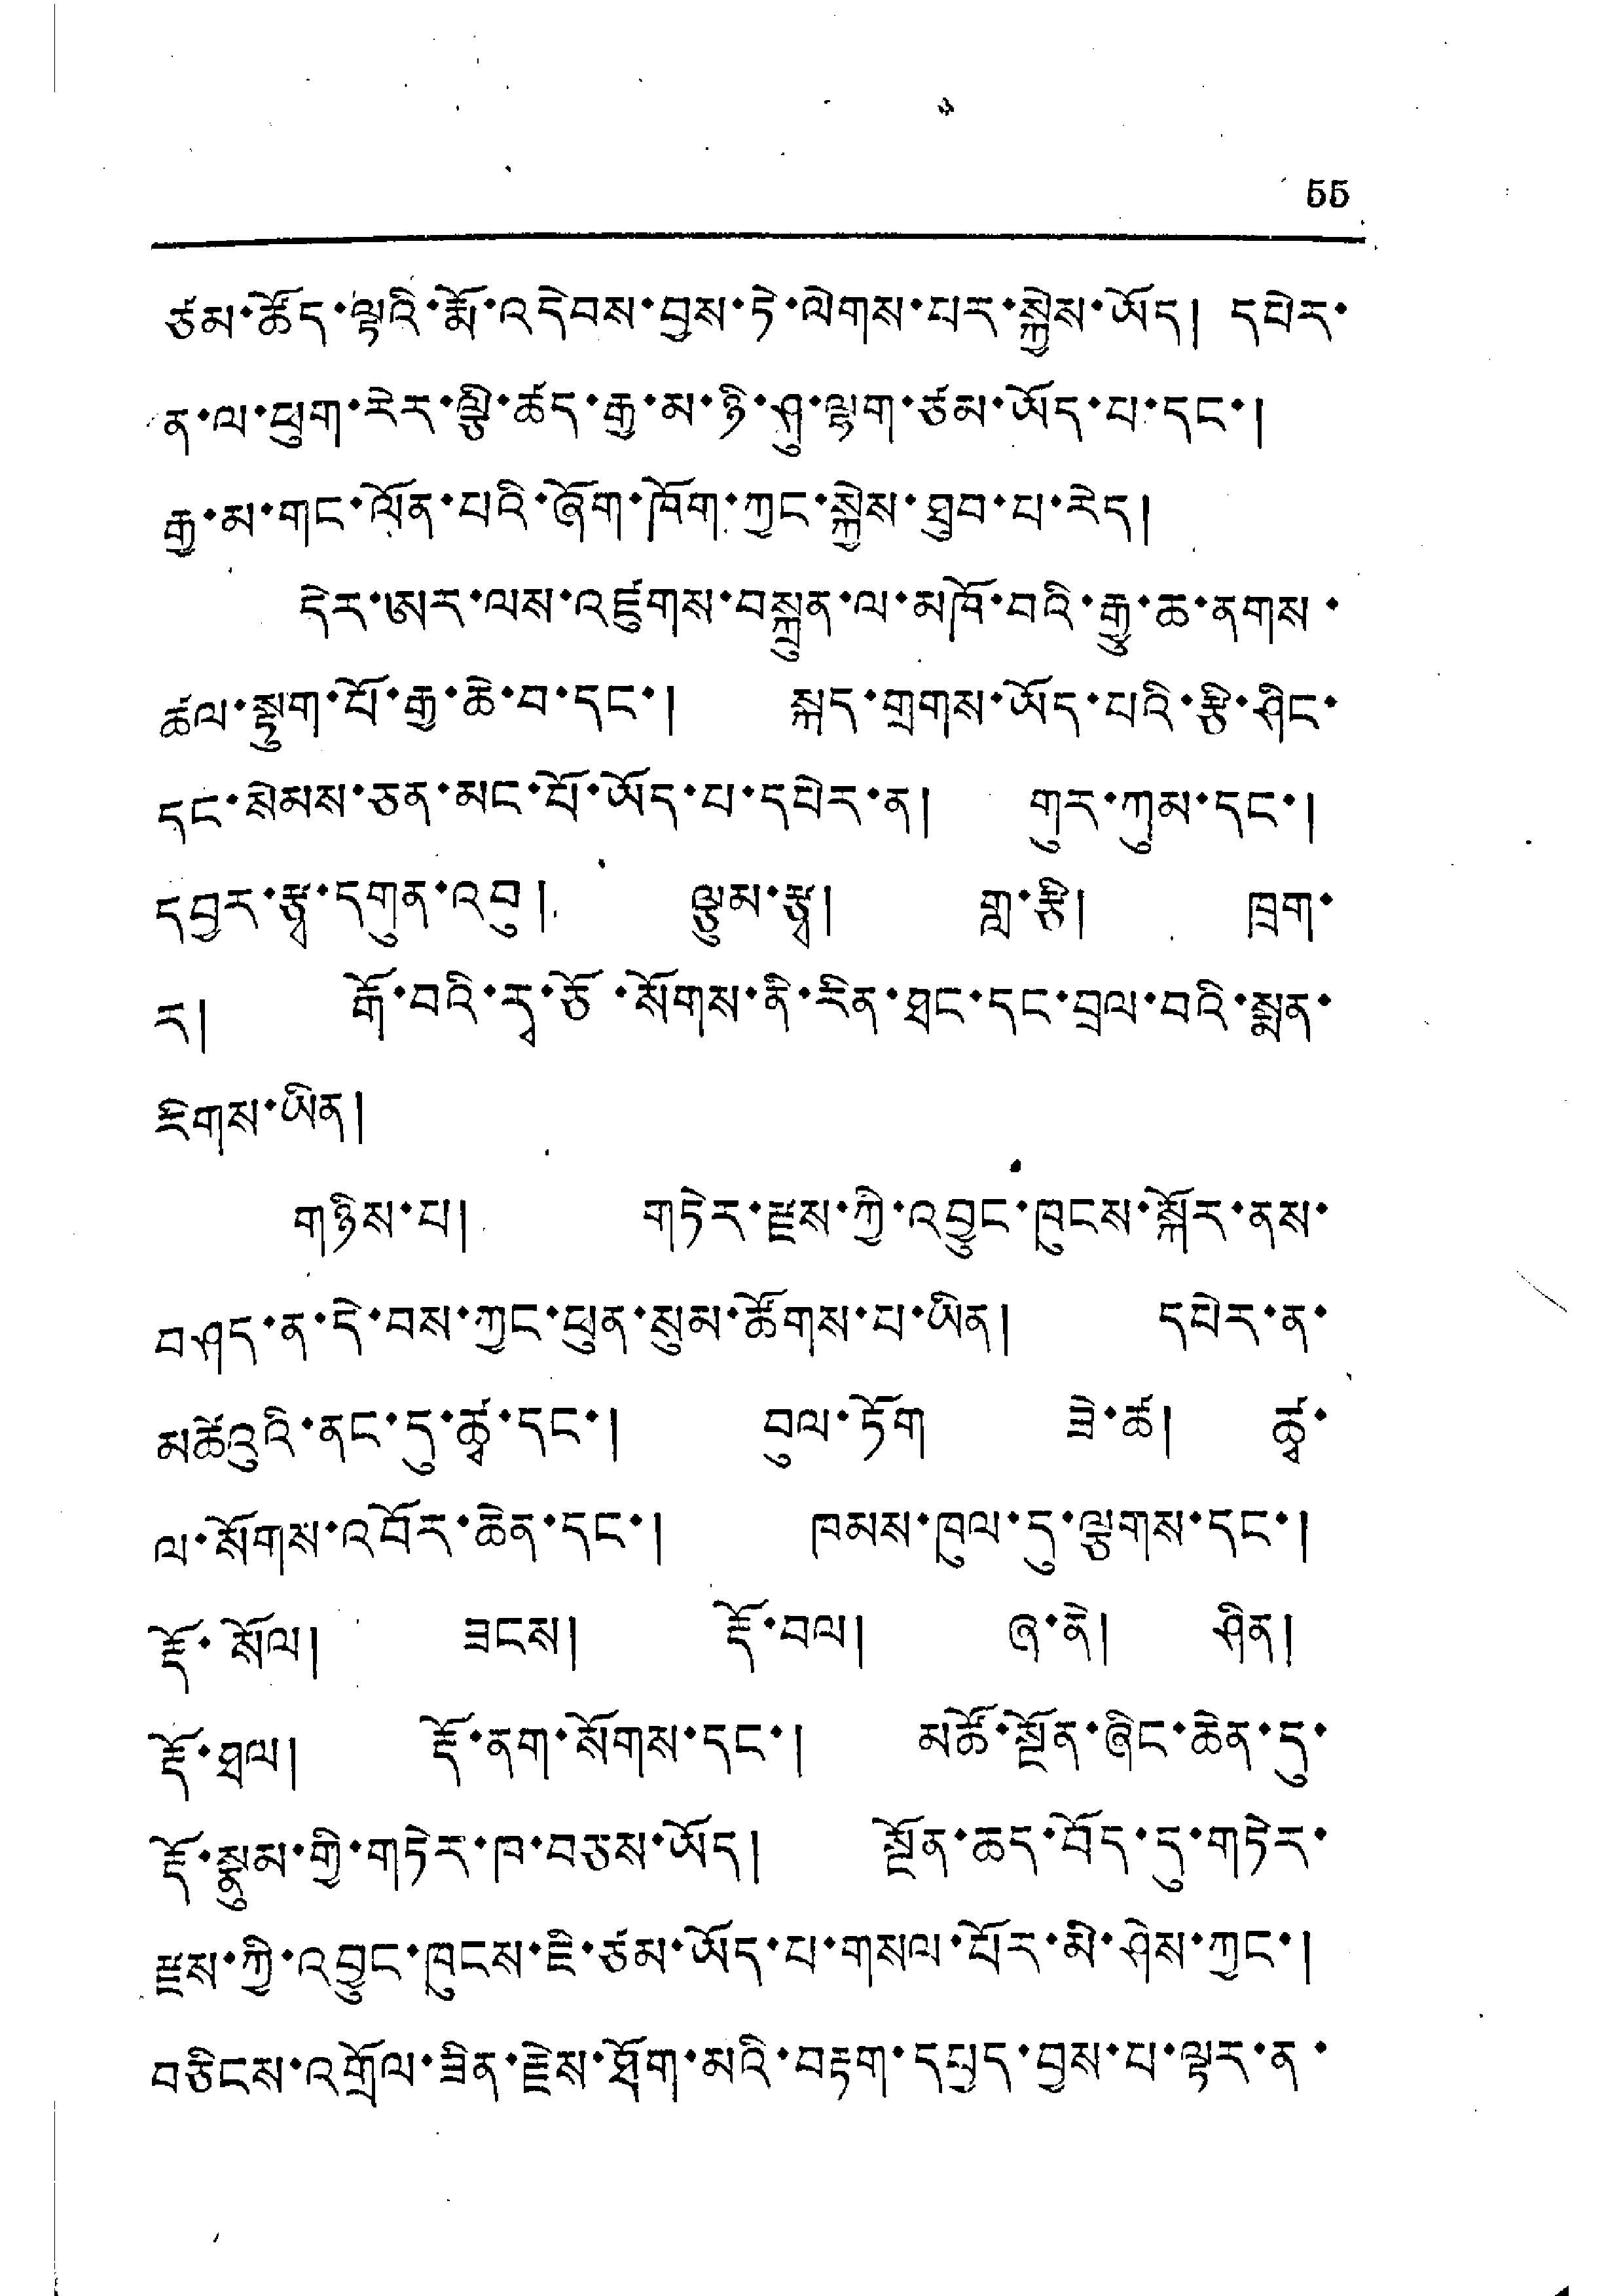55
ཙམ་ཚོད་ལྟའི་རྨོ་འདེབས་བྱས་ཏེ་ལེགས་པར་སྐྱེས་ཡོད། དཔེར་
ན་ལ་ཕུག་རེར་ལྕི་ཚད་རྒྱ་མ་ཉི་ཤུ་ལྷག་ཙམ་ཡོད་པ་དང་།
རྒྱ་མ་གུང་ལོན་པའི་ཞོག་ཁོག་ཀྱང་སྐྱེས་ཐུབ་པ་རེད།
དེར་ཨར་ལས་འཛུགས་བསྐྲུན་ལ་མཁོ་བའི་རྒྱུ་ཆ་ནགས་
ཚལ་སྟུག་པོ་རྒྱ་ཆེ་བ་དང་། སྐད་གྲགས་ཡོད་པའི་རྩི་ཤིང་
དང་སེམས་ཅན་མང་པོ་ཡོད་པ་དཔེར་ན། གུར་ཀུམ་དང་
དབྱར་རྩྭ་དགུན་འབུ། ལྕུམ་རྩྭ། གླ་རྩི། ཁྲག་
ར། རྒོ་བའི་རྭ་ཅོ་སོགས་ནི་རིན་ཐང་དང་བྲལ་བའི་སྨན་
རིགས་ཡིན།
གཉིས་པ། གཏེར་རྫས་ཀྱི་འབྱུང་ཁུངས་སྐོར་ནས་
བཤད་ན་དེ་བས་ཀྱང་ཕུན་སུམ་ཚོགས་པ་ཡིན། དཔེར་ན་
མཚོའུའི་ནང་དུ་ཚྭ་དང་། བུལ་ཏོག ཟེ་ཚ། ཚྭ་
ལ་སོགས་འབོར་ཆེན་དང་། ཁམས་ཁུལ་དུ་ལྕགས་དང་།
རྡོ་སོལ། ཟངས། རྡོ་བལ། ཞ་ནེ། ཤིན།
རྡོ་ཐལ། རྡོ་ནག་སོགས་དང་། མཚོ་སྔོན་ཞིང་ཆེན་དུ་
རྡོ་སྣུམ་གྱི་གཏེར་ཁ་བཅས་ཡོད། སྔོན་ཆད་བོད་དུ་གཏེར་
རྫས་ཀྱི་འབྱུང་ཁུངས་ཇི་ཙམ་ཡོད་པ་གསལ་པོར་མི་ཤེས་ཀྱང་།
བཅིངས་འགྲོལ་ཟིན་རྗེས་ཐོག་མའི་བརྟག་དཔྱད་བྱས་པ་ལྟར་ན་
